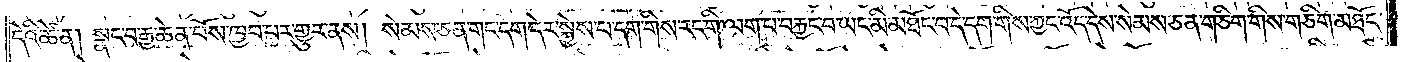དེའི་ཚེ་ན། སྣང་བ་རྒྱ་ཆེན་པོས་ཁྱབ་པར་གྱུར་ནས། སེམས་ཅན་གང་དག་དེར་སྐྱེས་པ་དག་གིས་རང་གི་ལག་པ་བརྐྱང་བ་ཡང་མི་མཐོང་བ་དེ་དག་གིས་ཀྱང་འོད་དེས་སེམས་ཅན་གཅིག་གིས་གཅིག་མཐོང་
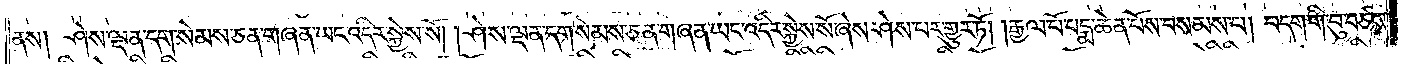ནས། ཤེས་ལྡན་དག་སེམས་ཅན་གཞན་ཡང་འདིར་སྐྱེས་སོ། ། ཤེས་ལྡན་དག་སེམས་ཅན་གཞན་ཡང་འདིར་སྐྱེས་སོ་ཞེས་ཤེས་པར་གྱུར་ཏོ། །རྒྱལ་པོ་པདྨ་ཆེན་པོས་བསམས་པ། བདག་གི་བུ་བཙས་
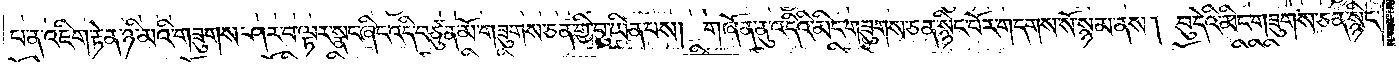པ་ན་འཇིག་རྟེན་ཉི་མའི་གཟུགས་ཤར་བ་ལྟར་སྣང་ཞིང་འདི་བཙུན་མོ་གཟུགས་ཅན་གྱི་བུ་ཡིན་པས། གཞོན་ནུ་འདིའི་མིང་གཟུགས་ཅན་སྙིང་བོར་གདགས་སོ་སྙམ་ནས། བུ་དེའི་མིང་གཟུགས་ཅན་སྙིང་
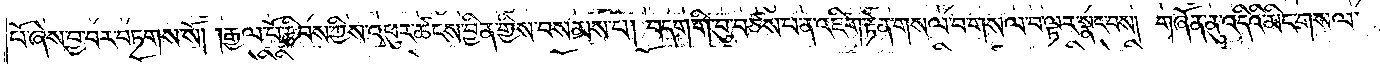པོ་ཞེས་བྱ་བར་བཏགས་སོ། །རྒྱལ་པོ་རྩིབས་ཀྱིས་འཕུར་ཚངས་བྱིན་གྱིས་བསམས་པ། བདག་གི་བུ་བཙས་པ་ན་འཇིག་རྟེན་གསལ་བ་གསལ་བ་ལྟར་སྣང་བས། གཞོན་ནུ་འདིའི་མིང་གསལ་
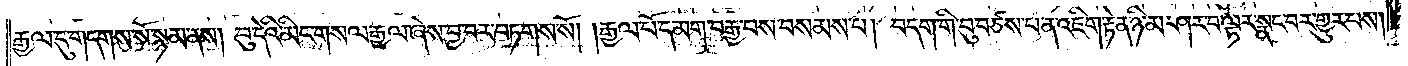རྒྱལ་དུ་གདགས་སོ་སྙམ་ནས། བུ་དེའི་མིང་གསལ་རྒྱལ་ཞེས་བྱ་བར་བཏགས་སོ། །རྒྱལ་པོ་དམག་བརྒྱབས་བསམས་པ། བདག་གི་བུ་བཙས་པ་ན་འཇིག་རྟེན་ཉི་མ་ཤར་བ་ལྟར་སྣང་བར་གྱུར་པས།
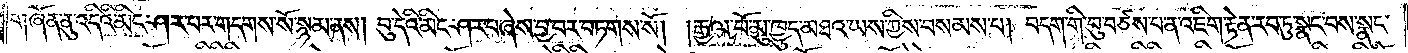གཞོན་ནུ་འདིའི་མིང་ཤར་པར་གདགས་སོ་སྙམ་ནས། བུ་དེའི་མིང་ཤར་པ་ཞེས་བྱ་བར་བཏགས་སོ། །རྒྱལ་པོ་མུ་ཁྱུད་མཐའ་ཡས་ཀྱིས་བསམས་པ། བདག་གི་བུ་བཙས་པ་ན་འཇིག་རྟེན་རབ་ཏུ་སྣང་བས་སྣང་
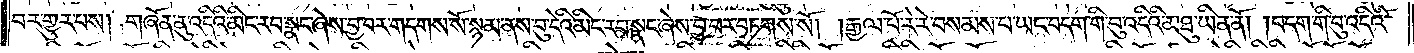བར་གྱུར་པས། གཞོན་ནུ་འདིའི་མིང་རབ་སྣང་ཞེས་བྱ་བར་གདགས་སོ་སྙམ་ནས་བུ་དེའི་མིང་རབ་སྣང་ཞེས་བྱ་བར་བཏགས་སོ། །རྒྱལ་པོ་རེ་རེ་བསམས་པ་ཡང་བདག་གི་བུ་འདིའི་མཐུ་ཡིན་ནོ། །བདག་གི་བུ་འདིའི་
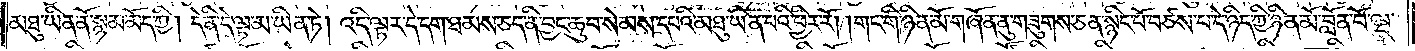མཐུ་ཡིན་ནོ་སྙམ་མོད་ཀྱི། དེ་ནི་དེ་ལྟ་མ་ཡིན་ཏེ། འདི་ལྟར་དེ་དག་ཐམས་ཅད་ནི་བྱང་ཆུབ་སེམས་དཔའི་མཐུ་ཡིན་པའི་ཕྱིར་རོ། །གང་གི་ཉིན་མོ་གཞོན་ནུ་གཟུགས་ཅན་སྙིང་པོ་བཙས་པ་དེ་ཉིད་ཀྱི་ཉིན་མོ་བློན་པོ་ལྔ་
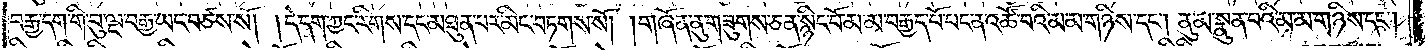བརྒྱ་དག་གི་བུ་ལྔ་བརྒྱ་ཡང་བཙས་སོ། །དེ་དག་ཀྱང་རིགས་དང་མཐུན་པར་མིང་བཏགས་སོ། །གཞོན་ནུ་གཟུགས་ཅན་སྙིང་པོ་མ་མ་བརྒྱད་པོ་པང་ན་འཚོ་བའི་མ་མ་གཉིས་དང༌། ནུ་མ་སྣུན་པའི་མ་མ་གཉིས་དང༌།
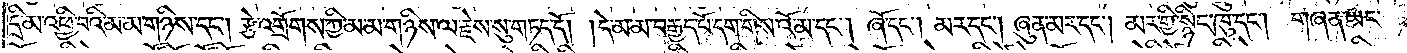དྲི་མ་འཕྱི་བའི་མ་མ་གཉིས་དང༌། རྩེ་འགྲོགས་ཀྱི་མ་མ་གཉིས་ལ་རྗེས་སུ་གཏད་དོ། །དེ་མ་མ་བརྒྱད་པོ་དག་གིས་འོ་མ་དང༌། ཞོ་དང༌། མར་དང༌། ཞུན་མར་དང༌། མར་གྱི་སྙིང་ཁུ་དང༌། གཞན་ཡང་
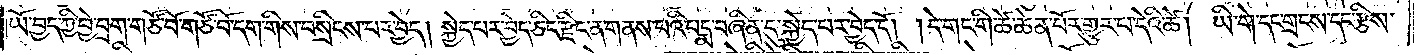ཡོ་བྱད་ཀྱི་བྱེ་བྲག་གཙོ་བོ་གཙོ་བོ་དག་གིས་བསྲིངས་པར་བྱེད། སྐྱེད་པར་བྱེད་ཅིང་རྫིང་ན་གནས་པའི་པདྨ་བཞིན་དུ་སྐྱེད་པར་བྱེད་དོ། །དེ་གང་གི་ཚེ་ཆེན་པོར་གྱུར་པ་དེའི་ཚེ། ཡི་གེ་དང་གྲངས་དང་རྩིས་
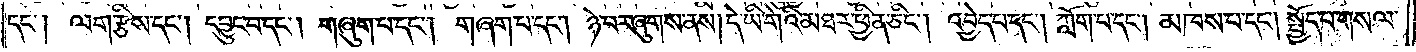དང༌། ལག་རྩིས་དང༌། དབྱུང་བ་དང༌། གཞུག་པ་དང༌། གཞག་པ་དང༌། ཉེ་བར་ཞུགས་ནས། དེ་ཡི་གེའི་མཐར་ཕྱིན་ཅིང༌། འབྱེད་པ་དང༌། ཀློག་པ་དང༌། མཁས་པ་དང༌། སྤྱོད་པ་གསལ་
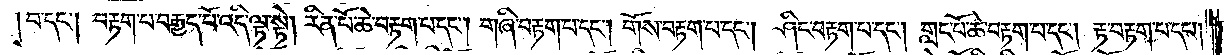བ་དང༌། བརྟག་པ་བརྒྱད་པོ་འདི་ལྟ་སྟེ། རིན་པོ་ཆེ་བརྟག་པ་དང༌། གཞི་བརྟག་པ་དང༌། གོས་བརྟག་པ་དང༌། ཤིང་བརྟག་པ་དང༌། གླང་པོ་ཆེ་བརྟག་པ་དང༌། རྟ་བརྟག་པ་དང༌།
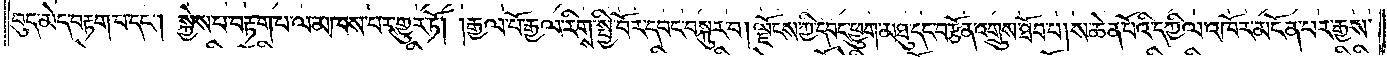བུད་མེད་བརྟག་པ་དང༌། སྐྱེས་པ་བརྟག་པ་ལ་མཁས་པར་གྱུར་ཏོ། །རྒྱལ་པོ་རྒྱལ་རིགས་སྤྱི་བོར་དབང་བསྐུར་བ། ལྗོངས་ཀྱི་དབང་ཕྱུག་མཐུ་དང་བརྩོན་འགྲུས་ཐོབ་པ། ས་ཆེན་པོའི་དཀྱིལ་འཁོར་མངོན་པར་རྒྱས་
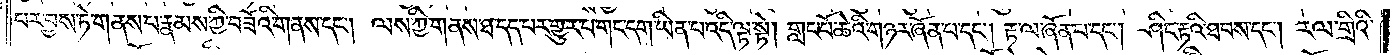པར་བྱས་ཏེ་གནས་པ་རྣམས་ཀྱི་བཟོའི་གནས་དང༌། ལས་ཀྱི་གནས་ཐ་དད་པར་གྱུར་པ་གང་དག་ཡིན་པ་འདི་ལྟ་སྟེ། གླང་པོ་ཆེའི་གཉར་ཞོན་པ་དང༌། རྟ་ལ་ཞོན་པ་དང༌། ཤིང་རྟའི་ཐབས་དང༌། རལ་གྲིའི་
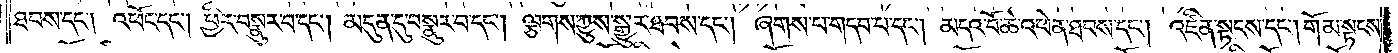ཐབས་དང༌། འཕོང་དང༌། ཕྱིར་བསྣུར་བ་དང༌། མདུན་དུ་བསྣུར་བ་དང༌། ལྕགས་ཀྱུས་སྒྱུར་ཐབས་དང༌། ཞགས་པ་གདབ་པ་དང༌། མདའ་བོ་ཆེ་འཕེན་ཐབས་དང༌། འཛིན་སྟངས་དང༌། གོམ་སྟངས་
